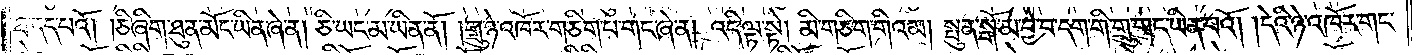ཐ་དད་པའོ། །ཅི་ཞིག་ཐུན་མོང་ཡིན་ཞེ་ན། ཅི་ཡང་མ་ཡིན་ནོ། །གྲུ་ཉེ་འཁོར་གཅིག་པ་གང་ཞེ་ན། འདི་ལྟ་སྟེ། མི་གཅིག་གིའམ། སྤུན་སྒོ་མ་བྱེ་བ་དག་གི་གྲུ་གང་ཡིན་པའོ། །དེའི་ཉེ་འཁོར་གང་
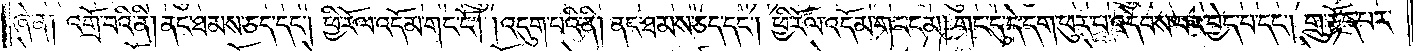ཞེ་ན། འགྲོ་བའི་ནི། ནང་ཐམས་ཅད་དང༌། ཕྱི་རོལ་འདོམ་གང་ངོ༌། །འདུག་པའི་ནི། ནང་ཐམས་ཅད་དང༌། ཕྱི་རོལ་འདོམ་གང་ངམ། གང་དུ་དེ་དག་ཕུར་པ་འདེབས་པར་བྱེད་པ་དང༌། གྲུ་རྟོད་པར་
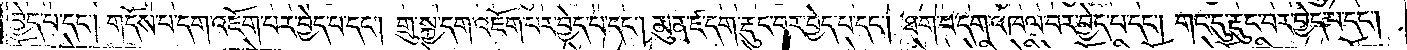བྱེད་པ་དང༌། གདོས་པ་དག་འཇོག་པར་བྱེད་པ་དང༌། གྲུ་སྐྱ་དག་འཇོག་པར་བྱེད་པ་དང༌། མུན་ཛ་དག་རྡུང་བར་བྱེད་པ་དང༌། ཐག་པ་དག་འཁལ་བར་བྱེད་པ་དང༌། གང་དུ་རྡུང་བར་བྱེད་པ་དང༌།
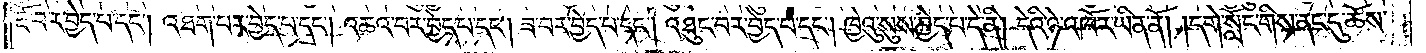རྔོ་བར་བྱེད་པ་དང༌། འཐག་པར་བྱེད་པ་དང༌། འཆའ་བར་བྱེད་པ་དང༌། ཟ་བར་བྱེད་པ་དང༌། འཐུང་བར་བྱེད་པ་དང༌། ཁྱེའུ་སུས་བྱེད་པ་དེ་ནི། དེའི་ཉེ་འཁོར་ཡིན་ནོ། །དགེ་སློང་གིས་ནང་དུ་ཆོས་
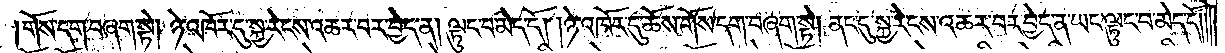གོས་དག་བཞག་སྟེ། ཉེ་འཁོར་དུ་སྐྱ་རེངས་འཆར་བར་བྱེད་ན། ལྟུང་བ་མེད་དོ། །ཉེ་འཁོར་དུ་ཆོས་གོས་དག་བཞག་སྟེ། ནང་དུ་སྐྱ་རེངས་འཆར་བར་བྱེད་ན་ཡང་ལྟུང་བ་མེད་དོ། །
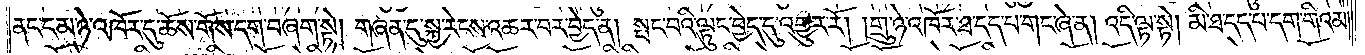ནང་ངམ་ཉེ་འཁོར་དུ་ཆོས་གོས་དག་བཞག་སྟེ། གཞན་དུ་སྐྱ་རེངས་འཆར་བར་བྱེད་ན། སྤང་བའི་ལྟུང་བྱེད་དུ་འགྱུར་རོ། །གྲུ་ཉེ་འཁོར་ཐ་དད་པ་གང་ཞེ་ན། འདི་ལྟ་སྟེ། མི་ཐ་དད་པ་དག་གིའམ།
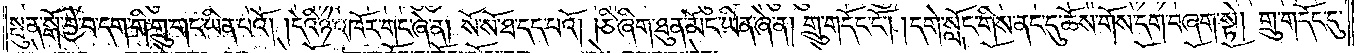སྤུན་སྒོ་བྱེ་བ་དག་གི་གྲུ་གང་ཡིན་པའོ། །དེའི་ཉེ་འཁོར་གང་ཞེ་ན། སོ་སོ་ཐ་དད་པའོ། །ཅི་ཞིག་ཐུན་མོང་ཡིན་ཞེ་ན། གྲུ་གདོང་ངོ༌། །དགེ་སློང་གིས་ནང་དུ་ཆོས་གོས་དག་བཞག་སྟེ། གྲུ་གདོང་དུ་
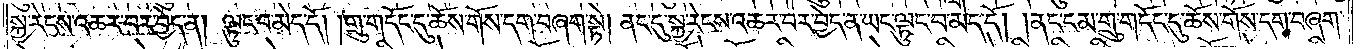སྐྱ་རེངས་འཆར་བར་བྱེད་ན། ལྟུང་བ་མེད་དོ། །གྲུ་གདོང་དུ་ཆོས་གོས་དག་བཞག་སྟེ། ནང་དུ་སྐྱ་རེངས་འཆར་བར་བྱེད་ན་ཡང་ལྟུང་བ་མེད་དོ། །ནང་ངམ་གྲུ་གདོང་དུ་ཆོས་གོས་དག་བཞག་
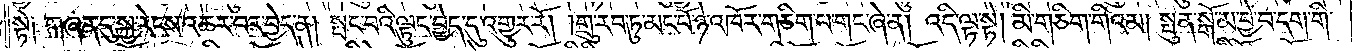སྟེ༑ གཞན་དུ་སྐྱ་རེངས་འཆར་བར་བྱེད་ན། སྤང་བའི་ལྟུང་བྱེད་དུ་འགྱུར་རོ། །གྲུ་རབ་ཏུ་མང་པོ་ཉེ་འཁོར་གཅིག་པ་གང་ཞེ་ན། འདི་ལྟ་སྟེ། མི་གཅིག་གིའམ། སྤུན་སྒོ་མ་བྱེ་བ་དག་གི་
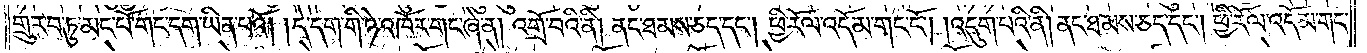གྲུ་རབ་ཏུ་མང་པོ་གང་དག་ཡིན་པའོ། །དེ་དག་གི་ཉེ་འཁོར་གང་ཞེ་ན། འགྲོ་བའི་ནི། ནང་ཐམས་ཅད་དང༌། ཕྱི་རོལ་འདོམ་གང་ངོ༌། །འདུག་པའི་ནི། ནང་ཐམས་ཅད་དང༌། ཕྱི་རོལ་འདོམ་གང་
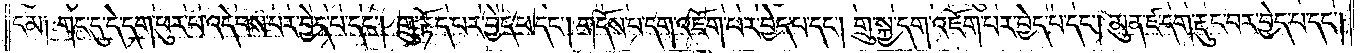ངམ། གང་དུ་དེ་དག་ཕུར་པ་འདེབས་པར་བྱེད་པ་དང༌། གྲུ་རྟོད་པར་བྱེད་པ་དང༌། གདོས་པ་དག་འཇོག་པར་བྱེད་པ་དང༌། གྲུ་སྐྱ་དག་འཇོག་པར་བྱེད་པ་དང༌། མུན་ཛ་དག་རྡུང་བར་བྱེད་པ་དང༌།
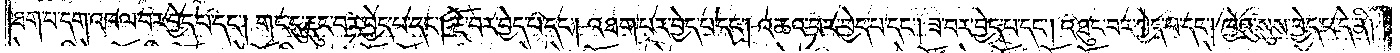ཐག་པ་དག་འཁལ་བར་བྱེད་པ་དང༌། གང་དུ་རྡུང་བར་བྱེད་པ་དང༌། རྔོ་བར་བྱེད་པ་དང༌། འཐག་པར་བྱེད་པ་དང༌། འཆའ་བར་བྱེད་པ་དང༌། ཟ་བར་བྱེད་པ་དང༌། འཐུང་བར་བྱེད་པ་དང༌། ཁྱེའུ་སུས་བྱེད་པ་དེ་ནི།
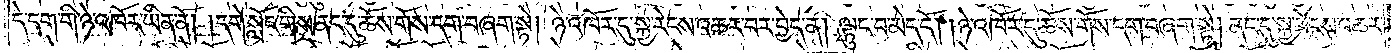དེ་དག་གི་ཉེ་འཁོར་ཡིན་ནོ། །དགེ་སློང་གིས་ནང་དུ་ཆོས་གོས་དག་བཞག་སྟེ། ཉེ་འཁོར་དུ་སྐྱ་རེངས་འཆར་བར་བྱེད་ན། ལྟུང་བ་མེད་དོ། །ཉེ་འཁོར་དུ་ཆོས་གོས་དག་བཞག་སྟེ། ནང་དུ་སྐྱ་རེངས་འཆར་
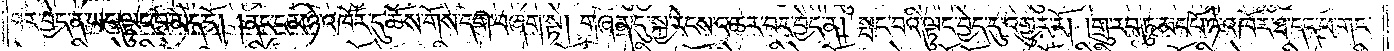བར་བྱེད་ན་ཡང་ལྟུང་བ་མེད་དོ། །ནང་ངམ་ཉེ་འཁོར་དུ་ཆོས་གོས་དག་བཞག་སྟེ། གཞན་དུ་སྐྱ་རེངས་འཆར་བར་བྱེད་ན། སྤང་བའི་ལྟུང་བྱེད་དུ་འགྱུར་རོ། །གྲུ་རབ་ཏུ་མང་པོ་ཉེ་འཁོར་ཐ་དད་པ་གང་
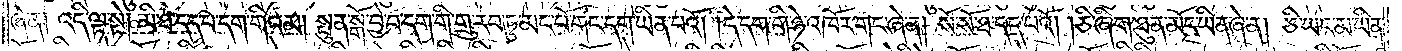ཞེ་ན། འདི་ལྟ་སྟེ། མི་ཐ་དད་པ་དག་གིའམ། སྤུན་སྒོ་བྱེ་བ་དག་གི་གྲུ་རབ་ཏུ་མང་པོ་གང་དག་ཡིན་པའོ། །དེ་དག་གི་ཉེ་འཁོར་གང་ཞེ་ན། སོ་སོ་ཐ་དད་པའོ། །ཅི་ཞིག་ཐུན་མོང་ཡིན་ཞེ་ན། ཅི་ཡང་མ་ཡིན་
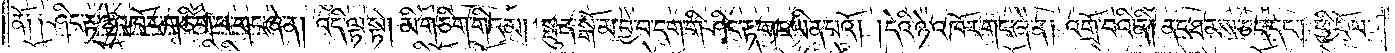ནོ༏ ༏ཤིང་རྟ་ཉེ་འཁོར་གཅིག་པ་གང་ཞེ་ན། འདི་ལྟ་སྟེ། མི་གཅིག་གིའམ། སྤུན་སྒོ་མ་བྱེ་བ་དག་གི་ཤིང་རྟ་གང་ཡིན་པའོ། །དེའི་ཉེ་འཁོར་གང་ཞེ་ན། འགྲོ་བའི་ནི། ནང་ཐམས་ཅད་དང༌། ཕྱི་རོལ་
